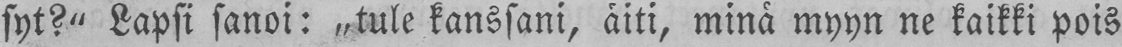syt?" Lapsi sanoi: ˶tule kanssani, äiti, minä myyn ne kaikki pois
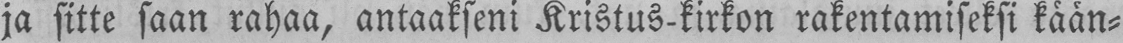ja sitte saan rahaa, antaakseni Kristus-kirkon rakentamiseksi kään-
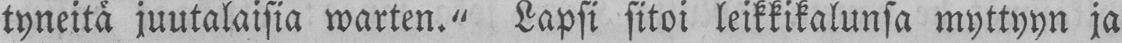tyneitä juutalaisia marten." Lapsi sitoi leikkikalunsa myttyyn ja
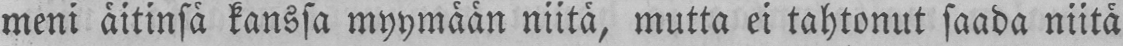meni äitinsä kanssa myymään niitä, mutta ei tahtonut saada niitä
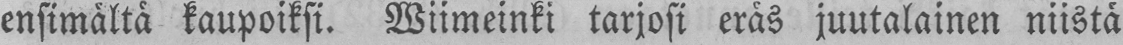ensimältä kaupoiksi. Wiimeinki tarjosi eräs juutalainen niistä
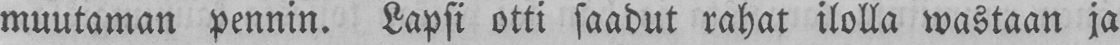muutaman pennin. Lapsi otti saadut rahat ilolla wastaan ja
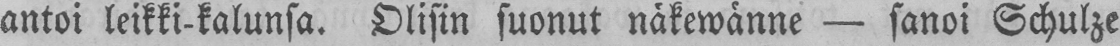antoi leikki-kalunsa. Olisin suonut näkewänne — sanoi Schulze
